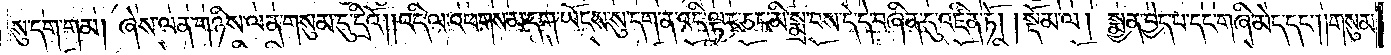སུ་དག་གམ། ཞེས་ལན་གཉིས་ལན་གསུམ་དུ་དྲིའོ། །འདི་ལ་འཕགས་མ་དག་ཡོངས་སུ་དག་ན་འདི་ལྟར་ཅང་མི་སྨྲ་བས་དེ་དེ་བཞིན་དུ་འཛིན་ཏོ།    །སྡོམ་ལ། སྨྱན་བྱེད་པ་དང་གཞི་མེད་དང༌། །གསུམ་
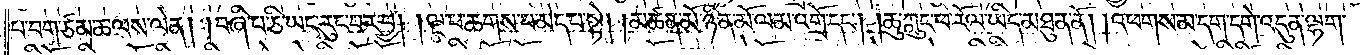པ་བག་ཙམ་ཆ་ལས་ལེན། །བཞི་པ་ཅི་ཡང་རུང་བར་བྱ། །ལྔ་པ་ཆགས་པ་མེད་པ་སྟེ། །མཚན་མོ་ཉིན་མོ་ལམ་འགྲོ་དང༌། །ཆུ་ཀླུང་ཕ་རོལ་ཡིད་མཐུན་ནོ། །འཕགས་མ་དག་དགེ་འདུན་ལྷག་
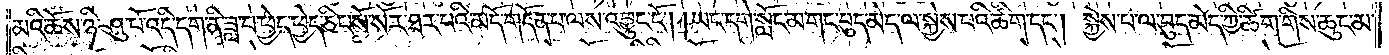མའི་ཆོས་ཉི་ཤུ་པོ་འདི་དག་ནི་ཟླ་བ་ཕྱེད་ཕྱེད་ཅིང་སོ་སོར་ཐར་པའི་མདོ་གདོན་པ་ལས་འབྱུང་ངོ༌། །ཡང་དགེ་སློང་མ་གང་བུད་མེད་ལ་སྐྱེས་པའི་ཚིག་དང༌། སྐྱེས་པ་ལ་བུད་མེད་ཀྱི་ཚིག་གིས་ཆུང་མ་
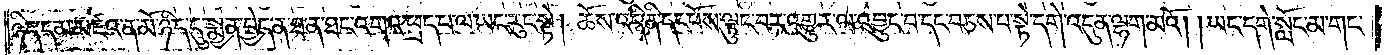ཉིད་དམ་མཛའ་ན་མོ་ཉིད་དུ་སྨྱན་བྱེད་ན་ཐ་ན་ཐང་འགའ་ཕྲད་པ་ལ་ཡང་རུང་སྟེ། ཆོས་འདི་ནི་དང་པོས་ལྟུང་བར་འགྱུར་ལ་འབྱུང་བ་དང་བཅས་པ་སྟེ་དགེ་འདུན་ལྷག་མའོ། །ཡང་དགེ་སློང་མ་གང་
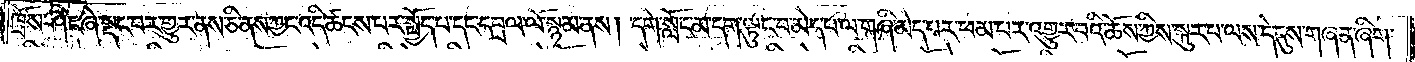ཁྲོས་ཤིང་ཞེ་སྡང་བར་གྱུར་ནས་ཅི་ནས་ཀྱང་འདི་ཚངས་པར་སྤྱོད་པ་དང་དབྲལ་ལོ་སྙམ་ནས། དགེ་སློང་མ་དག་ལྟུང་བ་མེད་པ་ལ་གཞི་མེད་པར་ཕམ་པར་འགྱུར་བའི་ཆོས་ཀྱིས་སྐུར་པ་ལས་དེ་དུས་གཞན་ཞིག་
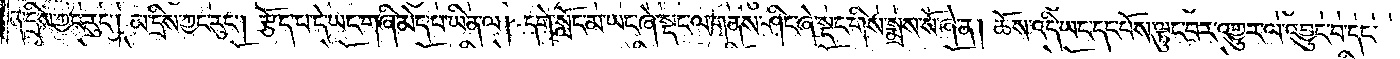ན་དྲིས་ཀྱང་རུང༌། མ་དྲིས་ཀྱང་རུང༌། རྩོད་པ་དེ་ཡང་གཞི་མེད་པ་ཡིན་ལ། དགེ་སློང་མ་ཡང་ཞེ་སྡང་ལ་གནས་ཤིང་ཞེ་སྡང་གིས་སྨྲས་སོ་ཞེ་ན། ཆོས་འདི་ཡང་དང་པོས་ལྟུང་བར་འགྱུར་ལ་འབྱུང་བ་དང་
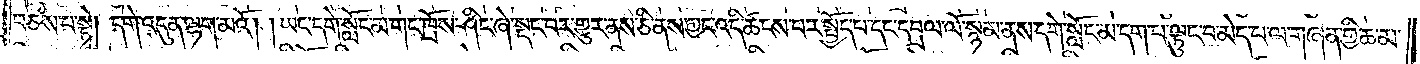བཅས་པ་སྟེ། དགེ་འདུན་ལྷག་མའོ། །ཡང་དགེ་སློང་མ་གང་ཁྲོས་ཤིང་ཞེ་སྡང་བར་གྱུར་ནས་ཅི་ནས་ཀྱང་འདི་ཚངས་པར་སྤྱོད་པ་དང་དབྲལ་ལོ་སྙམ་ནས་དགེ་སློང་མ་དག་པ་ལྟུང་བ་མེད་པ་ལ་གཞན་གྱི་ཆ་མ་
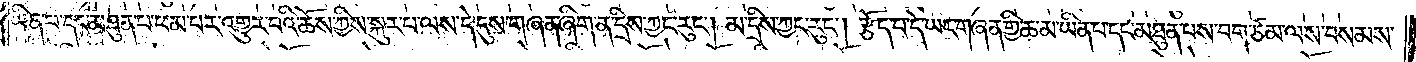ཡིན་པ་དང་མཐུན་པ་ཕམ་པར་འགྱུར་བའི་ཆོས་ཀྱིས་སྐུར་པ་ལས་དེ་དུས་གཞན་ཞིག་ན་དྲིས་ཀྱང་རུང༌། མ་དྲིས་ཀྱང་རུང༌། རྩོད་པ་དེ་ཡང་གཞན་གྱི་ཆ་མ་ཡིན་པ་དང་མཐུན་པས་བག་ཙམ་ལས་བསམས་
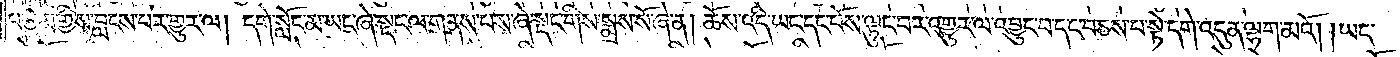པ་ཙམ་གྱིས་བླངས་པར་གྱུར་ལ། དགེ་སློང་མ་ཡང་ཞེ་སྡང་ལ་གནས་པས་ཞེ་སྡང་གིས་སྨྲས་སོ་ཞེ་ན། ཆོས་འདི་ཡང་དང་པོས་ལྟུང་བར་འགྱུར་ལ་འབྱུང་བ་དང་བཅས་པ་སྟེ་དགེ་འདུན་ལྷག་མའོ། །ཡང་
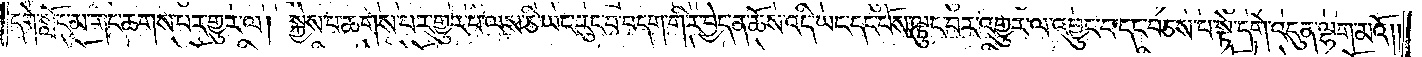དགེ་སློང་མ་གང་ཆགས་པར་གྱུར་ལ། སྐྱེས་པ་ཆགས་པར་གྱུར་པ་ལས་ཅི་ཡང་རུང་བ་བདག་གིར་བྱེད་ན་ཆོས་འདི་ཡང་དང་པོས་ལྟུང་བར་འགྱུར་ལ་འབྱུང་བ་དང་བཅས་པ་སྟེ་དགེ་འདུན་ལྷག་མའོ༎
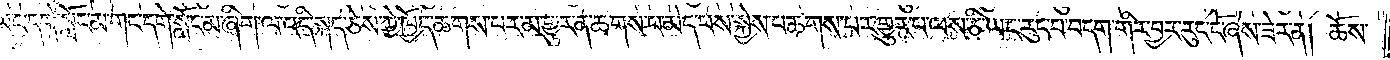ཡང་དགེ་སློང་མ་གང་དགེ་སློང་མ་ཞིག་ལ་འདི་སྐད་ཅེས་ཀྱེ་ཁྱོད་ཆགས་པར་མ་གྱུར་ན་ཆགས་པ་མེད་པས་སྐྱེས་པ་ཆགས་པར་གྱུར་པ་ལས་ཅི་ཡང་རུང་བ་བདག་གིར་བྱར་རུང་ངོ་ཞེས་ཟེར་ན། ཆོས་
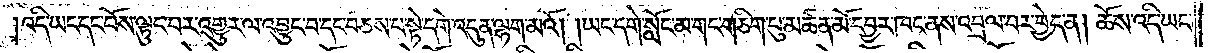འདི་ཡང་དང་པོས་ལྟུང་བར་འགྱུར་ལ་འབྱུང་བ་དང་བཅས་པ་སྟེ་དགེ་འདུན་ལྷག་མའོ། །ཡང་དགེ་སློང་མ་གང་གཅིག་པུ་མཚན་མོ་དབྱར་ཁང་ནས་འབྲལ་བར་བྱེད་ན། ཆོས་འདི་ཡང་
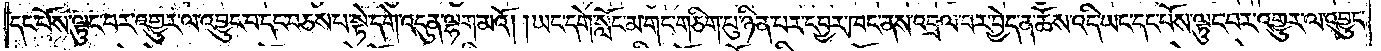དང་པོས་ལྟུང་བར་འགྱུར་ལ་འབྱུང་བ་དང་བཅས་པ་སྟེ་དགེ་འདུན་ལྷག་མའོ། །ཡང་དགེ་སློང་མ་གང་གཅིག་པུ་ཉིན་པར་དབྱར་ཁང་ནས་འབྲལ་བར་བྱེད་ན་ཆོས་འདི་ཡང་དང་པོས་ལྟུང་བར་འགྱུར་ལ་འབྱུང་
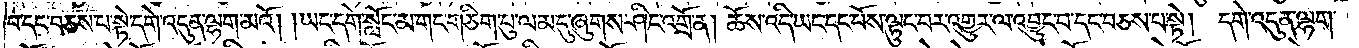བ་དང་བཅས་པ་སྟེ་དགེ་འདུན་ལྷག་མའོ། །ཡང་དགེ་སློང་མ་གང་གཅིག་པུ་ལམ་དུ་ཞུགས་ཤིང་འགྲོ་ན། ཆོས་འདི་ཡང་དང་པོས་ལྟུང་བར་འགྱུར་ལ་འབྱུང་བ་དང་བཅས་པ་སྟེ། དགེ་འདུན་ལྷག་
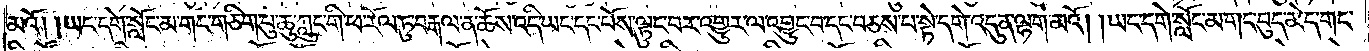མའོ། །ཡང་དགེ་སློང་མ་གང་གཅིག་པུ་ཆུ་ཀླུང་གི་ཕ་རོལ་ཏུ་བརྒལ་ན་ཆོས་འདི་ཡང་དང་པོས་ལྟུང་བར་འགྱུར་ལ་འབྱུང་བ་དང་བཅས་པ་སྟེ་དགེ་འདུན་ལྷག་མའོ། །ཡང་དགེ་སློང་མ་གང་བུད་མེད་གང་
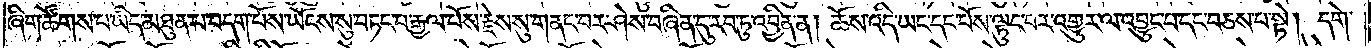ཞིག་ཚོགས་པ་ཡིད་མཐུན་པ་བདག་པོས་ཡོངས་སུ་བཏང་བ་རྒྱལ་པོས་རྗེས་སུ་གནང་བར་ཤེས་བཞིན་དུ་རབ་ཏུ་འབྱིན་ན། ཆོས་འདི་ཡང་དང་པོས་ལྟུང་བར་འགྱུར་ལ་འབྱུང་བ་དང་བཅས་པ་སྟེ། དགེ་
